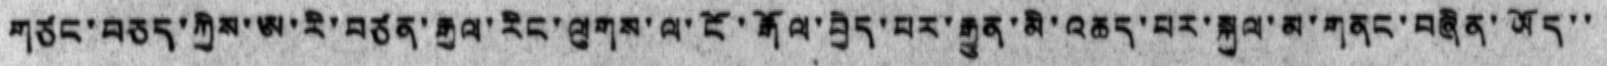གཙང་བཅད་ཀྱིས་ཨ་རི་བཙན་རྒྱལ་རིང་ལུགས་ལ་ངོ་རྒོལ་བྱེད་པར་རྒྱུན་མི་འཆད་པར་སྐུལ་མ་གནང་བཞིན་ཡོད་་
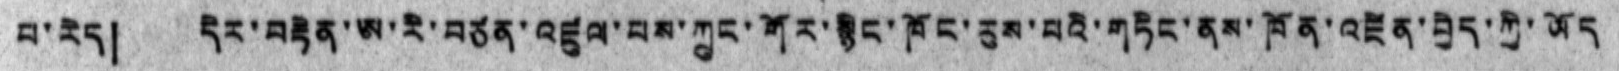པ་རེད། དེར་བརྟེན་ཨ་རི་བཙན་འཛུལ་པས་ཀྲུང་གོར་སྙིང་ཁོང་རུས་པའི་གཏིང་ནས་ཁོན་འཛིན་བྱེད་ཀྱི་ཡོད
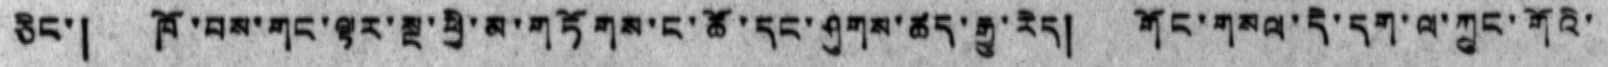ཅིང་། ཁོ་པས་གང་ལྟར་སྔ་ཕྱི་མ་གཏོགས་ང་ཚོ་དང་ཤུགས་ཚད་རྒྱུ་རེད། གོང་གསལ་དེ་དག་ལ་ཀྲུང་གོའི་
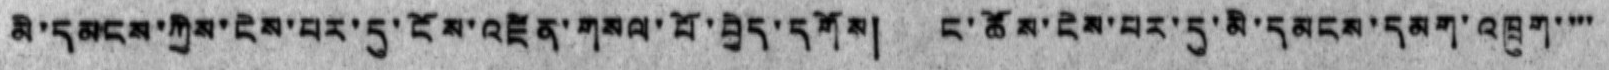མི་དམངས་ཀྱིས་ངེས་པར་དུ་ངོས་འཛིན་གསལ་པོ་བྱེད་དགོས། ང་ཚོས་ངེས་པར་དུ་མི་དམངས་དམག་འཁྲུག་ ་་་
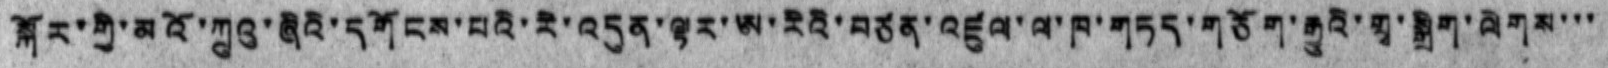སྐོར་གྱི་མའོ་ཀྲུའུ་ཞིའི་དགོངས་པའི་རི་འདུན་ལྟར་ཨ་རིའི་བཙན་འཛུལ་ལ་ཁ་གཏད་གཅོག་རྒྱུའི་གྲྭ་སྒྲིག་ལེགས་་་
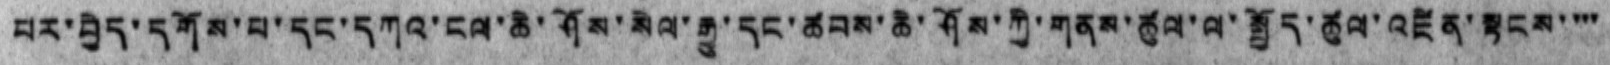པར་བྱེད་དགོས་པ་དང་དཀའ་ངལ་ཆེ་ཤོས་སེལ་རྒྱུ་དང་ཚབས་ཆེ་ཤོས་ཀྱི་གནས་ཚུལ་ལ་སྤྱོད་ཚུལ་འཛིན་སྟངས་་་་
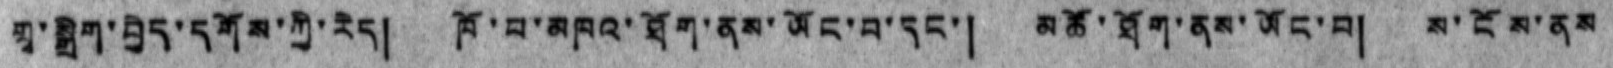གྲྭ་སྒྲིག་བྱེད་དགོས་ཀྱི་རེད། ཁོ་པ་མཁའ་ཐོག་ནམ་ཡོང་བ་དང་། མཚོ་ཐོག་ནས་ཡོང་བ། མ་ངོས་ནས
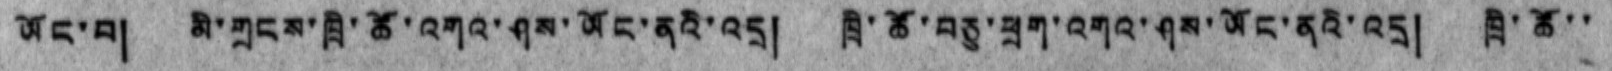ཡོང་བ། མི་གྲངས་ཁྲི་ཚོ་འགའ་ཤས་ཡོང་ནའི་འདྲ། ཁྲི་ཚོ་བཅུ་ཕྲག་འགའ་ཤས་ཡོང་ནའི་འདྲ། ཁྲི་ཚོ་་
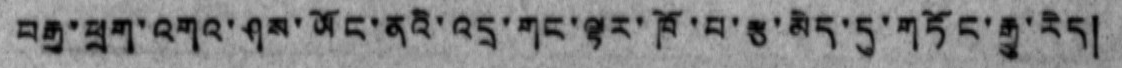བརྒྱ་ཕྲག་འགའ་ཤས་ཡོང་ནའི་འདྲ་གང་ལྟར་ཁོ་པ་རྩ་མེད་དུ་གཏོང་རྒྱུ་རེད།
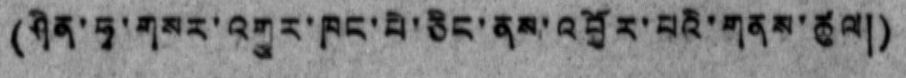(ཤིན་ཧྭ་གསར་འགྱུར་ཁང་པེ་ཅིང་ནམ་འབྱོར་པའི་གནས་ཚུལ།)
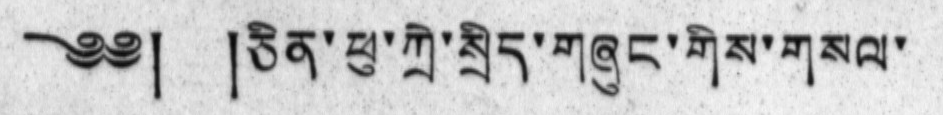༄༅། །ཅིན་ཕུ་ཀྲེ་སྲིད་གཞུང་གིས་གསལ་
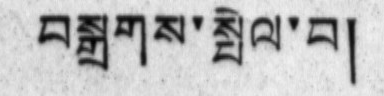བསྒྲགས་སྤེལ་བ།
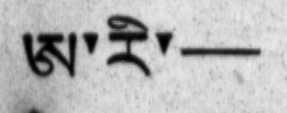ཨ་རི་—
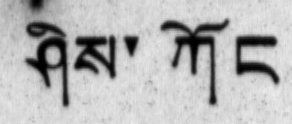ཤིས་ཀོང
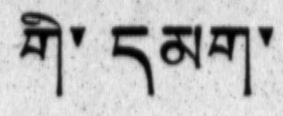གི་དམག་
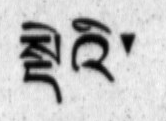སྡེའི་
